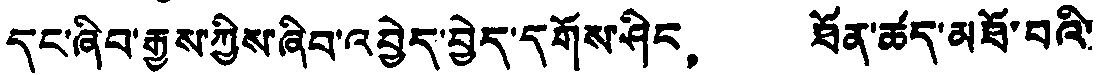དང་ཞིབ་རྒྱས་ཀྱིས་ཞིབ་འབྱེད་བྱེད་དགོས་ཤིང， ཐོན་ཚད་མཐོ་བའི་
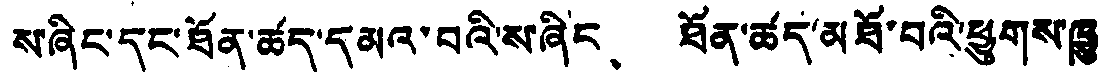ས་ཞིང་དང་ཐོན་ཚད་དམའ་བའི་ས་ཞིང、 ཐོན་ཚད་མཐོ་བའི་ཕྱུགས་ཁྱུ
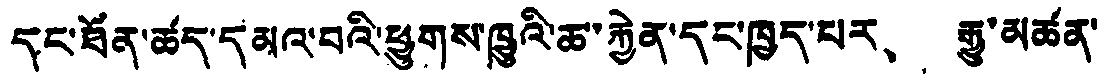དང་ཐོན་ཚད་དམའ་བའི་ཕྱུགས་ཁྱུའི་ཆ་རྐྱེན་དང་ཁྱད་པར、 རྒྱུ་མཚན་
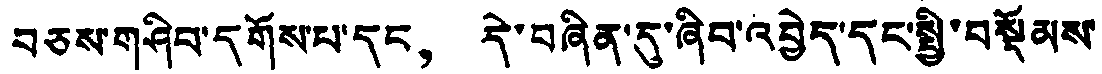བཅས་གཤིབ་དགོས་པ་དང， དེ་བཞིན་དུ་ཞིབ་འབྱེད་དང་སྤྱི་བསྡོམས་
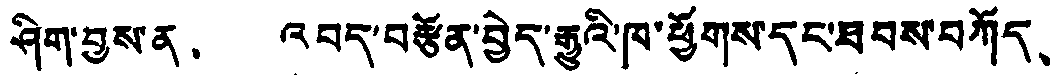ཤིག་བྱས་ན、 འབད་བརྩོན་བྱེད་རྒྱུའི་ཁ་ཕྱོགས་དང་ཐབས་བཀོད、
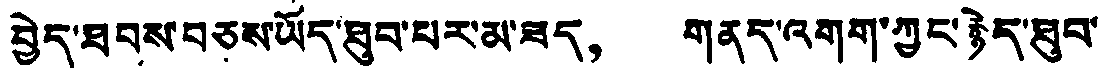བྱེད་ཐབས་བཅས་ཡོད་ཐུབ་པར་མ་ཟད， གནད་འགག་ཀྱང་རྙེད་ཐུབ་
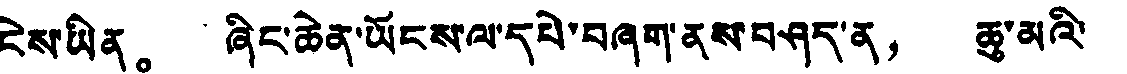ངེས་ཡིན。 ཞིང་ཆེན་ཡོངས་ལ་དཔེ་བཞག་ནས་བཤད་ན， ཆུ་མའི་
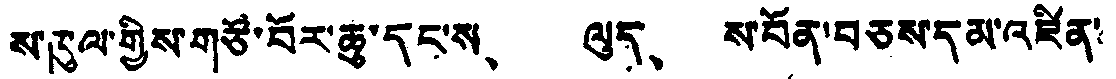ས་ཁུལ་གྱིས་གཙོ་བོར་ཆུ་དང་ས、 ལུད、 ས་བོན་བཅས་དམ་འཛིན་
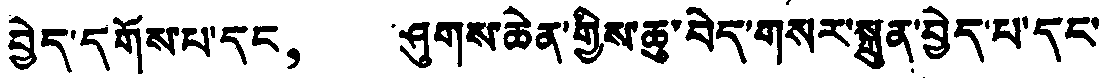བྱེད་དགོས་པ་དང， ཤུགས་ཆེན་གྱིས་ཆུ་བེད་གསར་སྐྲུན་བྱེད་པ་དང་
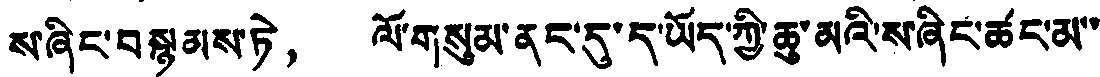ས་ཞིང་བསྙམས་ཏེ， ལོ་གསུམ་ནང་དུ་ད་ཡོད་ཀྱི་ཆུ་མའི་ས་ཞིང་ཚང་མ་་
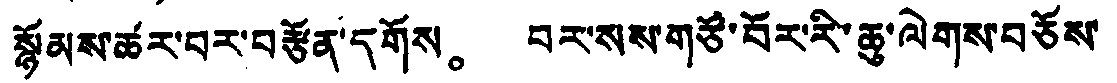སྙོམས་ཚར་བར་བརྩོན་དགོས。 བར་སས་གཙོ་བོར་རི་ཆུ་ལེགས་བཅོས་
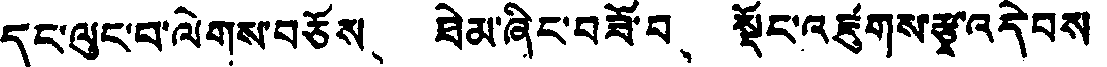དང་ལུང་བ་ལེགས་བཅོས、 ཐེམ་ཞིང་བཟོ་བ、 སྡོང་འཛུགས་རྩྭ་འདེབས
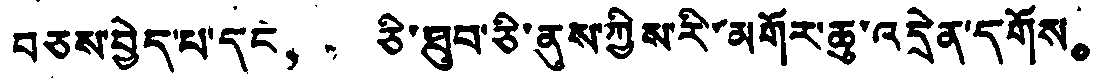བཅས་བྱེད་པ་དང， ཅི་ཐུབ་ཅི་ནུས་ཀྱིས་རི་མགོར་ཆུ་འདྲེན་དགོས。
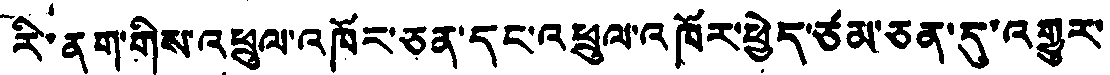རི་ནག་གིས་འཕྲུལ་འཁོར་ཅན་དང་འཕྲུལ་འཁོར་ཕྱེད་ཙམ་ཅན་དུ་འགྱུར་
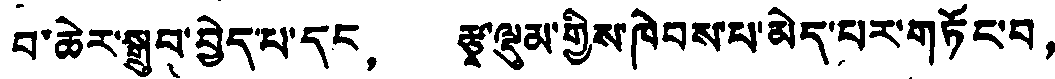བ་ཆེར་སྒྲུབ་བྱེད་པ་དང， རྩྭ་ལྡུམ་གྱིས་ཁེབས་པ་མེད་པར་གཏོང་བ，
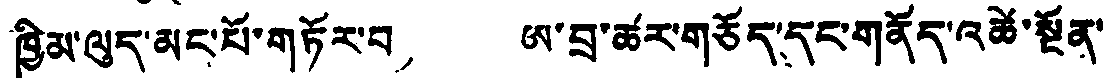ཁྱིམ་ལུད་མང་པོ་གཏོར་བ， ཨ་བྲ་ཚར་གཅོད་དང་གནོད་འཚེ་སྔོན་
